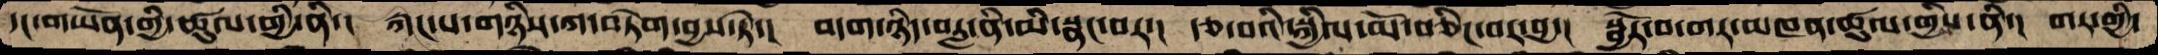དང་གཡོན་གྱི་ཚུལ་གྱི་ནི་།  རྐང་པ་གཉིས་ཀ་བཏེག་བྱས་ཏེ་།  བདག་ཉིད་བརླ་ནི་མི་སྣང་བར་།  རྩ་བའི་སྐྱིལ་མོ་བཅིང་བར་བྱ་།  སྦྱོར་བ་གར་མཁན་ཚུལ་གྱིས་ནི་།  གར་གྱི་
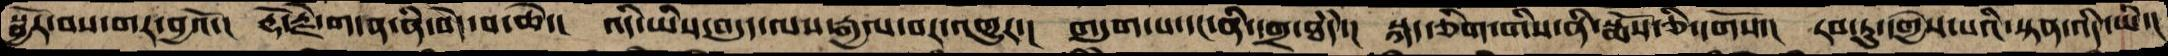སྦྱོར་བས་གར་བྱའོ་།  རྡོ་རྗེ་གདན་ནི་བདེ་བ་ཆེ་།  འདི་ཡིས་བདུད་ལས་རྒྱལ་བར་འགྱུར་།  གདུག་པ་དང་ནི་དགྲ་ཐཾད་།  སྐད་ཅིག་གིས་ནི་སྨོས་ཅི་དགོས་།  རབ་ཏུ་དགྱེས་པའི་སྟན་འདི་ཡི་།
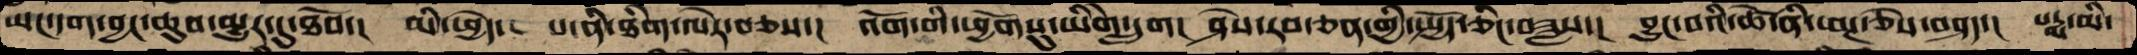ཡང་དག་བྱང་ཆུབ་མྱུར་དུ་ཐོབ་།  མི་ཕྱེད་  པ་ནི་ཐིག་ལེར་བཅས་།  འོག་གི་ཕྱོགསུ་ཡིགེ་དྲུག།  ཤེས་རབ་ཅན་གྱི་སྤྱོད་ཅིང་བཟླས་།   བྱུང་བའི་ཚེ་ནི་ཕཊ་ཅེས་བཤད་།  པདྨ་མི་
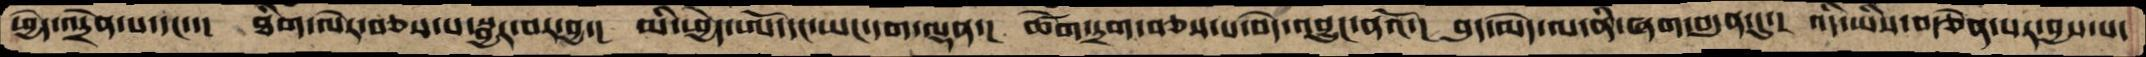ཕྱེད་འདྲེན་པ་དང་་།  ཐིག་ལེར་བཅས་པ་སྦྱར་བར་བྱ་།  མི་ཕྱེད་ཨོ་དང་ཡང་དག་ལྡན་།  ཚེག་དྲག་བཅས་པ་བདེ་འབྱུང་ནའོ་།  བུད་མེད་ལ་ནི་ཞག་བདུན་དུ་།  འདི་ཡིས་བརྩེན་པར་བྱས་པ་
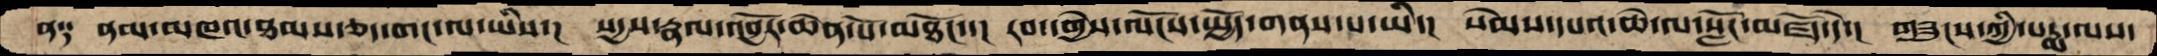ན༑  ནམ་མཁའ་ཐམས་ཅད་གང་ལ་ཡིས་།  སདྱས་རྣལ་འབྱོར་ཆེན་པོར་མཐོང་་།  རབ་དགྱེས་ལོངས་སྤྱོད་གནས་པ་ཡི་།  སེམས་དཔའ་ཆེ་ལ་སློང་མཛོད་དེ་།  གཟུངས་ཀྱི་པདྨ་ལས་
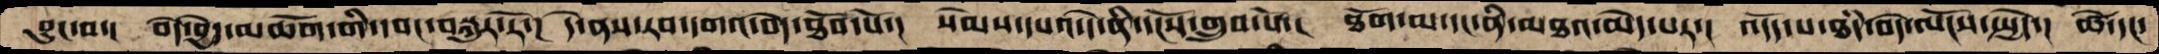བྱུང་བ་།  བདེ་བྱེད་མཆོག་གི་དབང་བསྐུར་རོ་།  དེ་ནས་རབ་དགའ་བདེ་ཐོབ་པོ་།  སེམས་དཔའ་དེ་ནི་དངོས་གྲུབ་པོ་།  ཐོག་མ་དང་ནི་མཐའ་མེད་པར་།  འདོད་པ་ཐཾད་བདེ་ལོངས་སྤྱོད་།  ཚེ་དང་
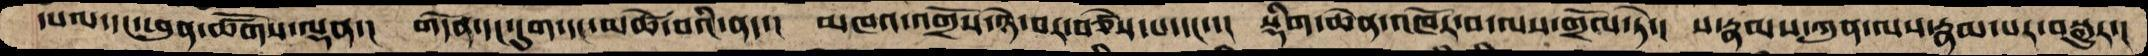དཔལ་དང་ཕུན་ཚོགས་ལྡན་།  གདོན་དང་དུག་དང་མཚེ་བའི་ནད་།  མཁའ་འགྲོས་ཉེ་བར་བཙེས་པ་དང་་།  སྡིག་ཆེན་འཁོར་བ་ལས་གྲོལ་ཏེ་།  ས་རྣམས་ཀུན་ལས་རྣམ་པར་བསྒྱུར་།
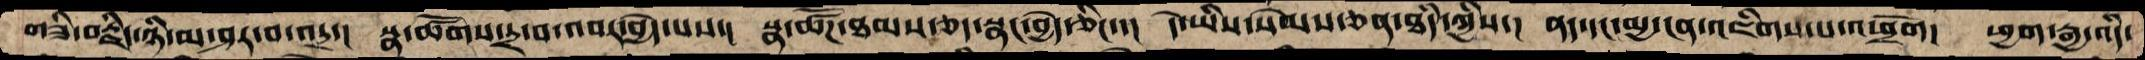གཟི་བརྗིད་ཉི་མ་ཤར་བ་འདྲ་།  སྣ་ཚོགས་དྲ་བ་འབར་བྱེད་པས་།  སྣ་ཚོགས་ཐམས་ཅད་སྣང་བྱེད་ཅིང་་།  དེ་ཡིས་སེམས་ཅད་ཐཾད་ཀྱིས་།  ནད་དང་མྱ་ངན་འཇིགས་པ་འཕྲོག།  ཕྱག་རྒྱ་འདི་
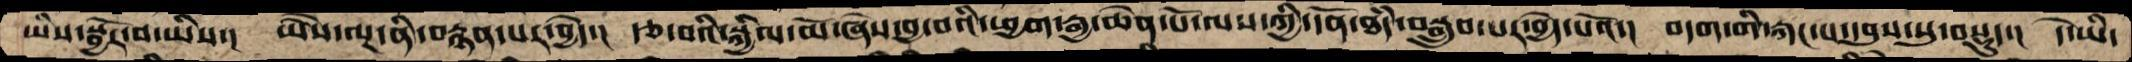ཡིས་སྦྱོར་བ་ཡིས་།  ཡཻས་ལྔ་ནི་བརྙན་པར་བྱེད་།  རྩ་བའི་སྐྱིལ་མོ་ཞེས་བྱ་བའི་ཕྱག་རྒྱ་ཆེན་པོ་ལས་ཀྱི་དོན་ཐཾད་བསྒྲུབ་པར་བྱེད་པའོ་།  བདག་གི་རྐང་པ་དབུས་སུ་བསྡུད་། དེ་ཡི་
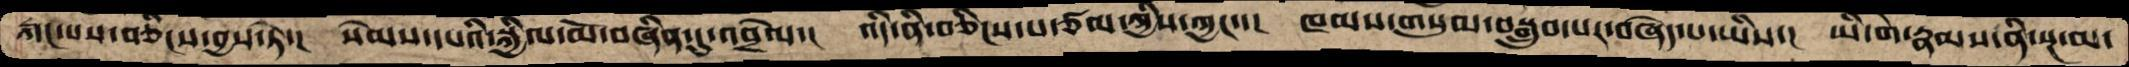རྐང་པས་བཅིངས་བྱས་ཏེ་།  སེམས་དཔའི་སྐྱིལ་མོ་བཞིན་དུ་འབྲེལ་།  འདི་ནི་བཅིངས་པ་ཙམ་ཀྱིས་ཀྱང་་།  ཁམས་གསུམ་བསྒྲུབ་པར་བཞེད་པ་ཡིས་།  ཡི་གེ་རྣམས་ནི་སྔ་མ་
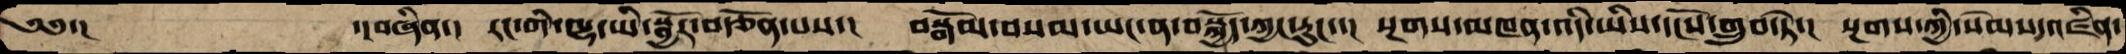༄༅་།            ་།བཞིན་།  རང་གི་ལྷ་ཡི་སྦྱོར་བརྩོན་པས་།  བསྒོམ་བསམ་ཡང་ན་བསྐྱོད་ཀྱང་རུང་་།  སྔགས་མཁན་འདི་ཡིས་དངོས་གྲུབ་ཏེ་།  སྔགས་ཀྱི་སེམས་འཛིན་
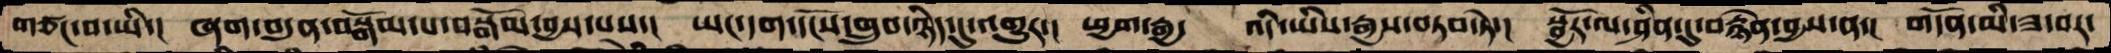གཙང་བ་ཡི་།  ཞག་བདུན་བསྒོམ་པ་བསྒོམ་བྱས་པས་།  ཡང་དག་དངོས་གྲུབ་ཉིད་དུ་འགྱུར་།  ཕྱག་རྒྱ་  འདི་ཡིས་རྒྱས་བཏབ་ཏེ་།  སྦྱོར་ལ་ཤིན་དུ་བརྙེན་བྱས་ནས་།  གདོན་མི་ཟ་བར་
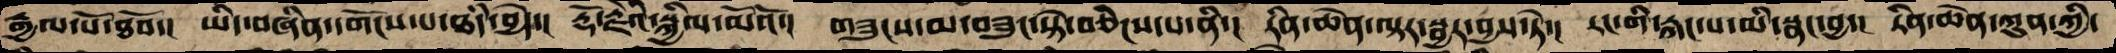རྒྱལ་པོ་ཐོབ་།  ཡིད་བཞིན་དགོངས་པ་ཐཾད་བྱེད་།  རྡོ་རྗེའི་སྐྱིལ་མོའོ་།  གཟུངས་མ་བཟུང་སྟེ་བཅིངས་པ་ནི་།  རིན་ཆེན་ལྟར་སྦྱར་བྱས་ཏེ་།  རང་གི་རྐང་པ་མི་སྣང་བྱ་།  རིན་ཆེན་ཀུན་ཀྱི་
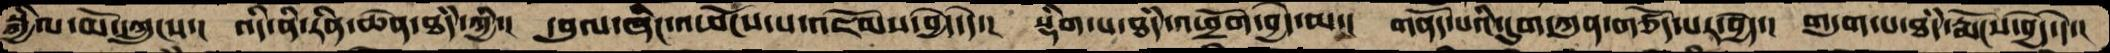སྐྱིལ་མོ་དཀྲུངས་།   འདི་ནི་རིན་ཆེན་ཐཾད་ཀྱི་།  དབུལ་ཞིང་འཕོངས་པ་འཇོམས་བྱེད་དེ་།  སྡིག་པ་ཐཾད་འཕྲོག་བྱེད་མ་།  གནོད་པའི་དུག་ཀུན་གཅོད་པར་བྱེད་།  གདུག་པ་ཐཾད་རྨོངས་བྱེད་དེ་།
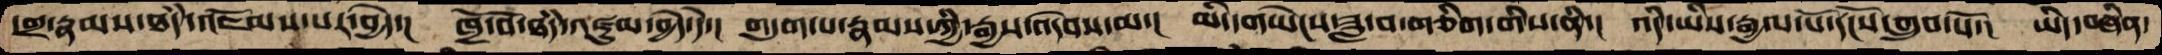དགྲ་རྣམས་ཐཾད་འཇོམས་པར་བྱེད་།  ཁྲོ་བོ་ཐཾད་འཛུམ་བྱེད་དེ་།  གདུག་པ་རྣམས་ཀྱི་རྒྱས་འདེབས་མ་།  མིད་གཡེངས་ཟླ་བ་གཅིག་གིས་ནི་།  འདི་ཡིས་རྒྱལ་པོ་དངོས་གྲུབ་པོ་།  ཡིད་བཞིན་
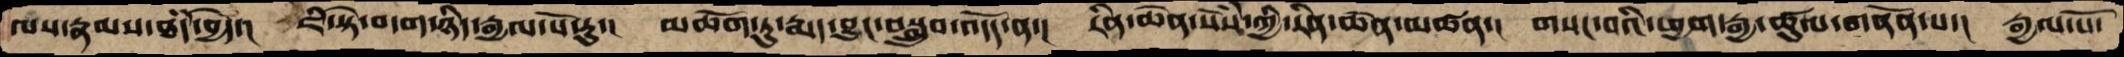ལས་རྣམས་ཐཾད་བྱེད་།   ཇི་སྟེ་བདག་ཉིད་རྒྱལ་པོ་རུ་།  མཆོག་ཏུ་རྨད་བྱུང་བསྒྲུབ་འདོད་ན་།  རིན་ཆེན་སེཾས་ཀྱི་རིན་ཆེན་མཚན་།  གསང་བའི་ཕྱག་རྒྱ་ཚུལ་གནོན་པ་།  རྒྱལ་པོ་
